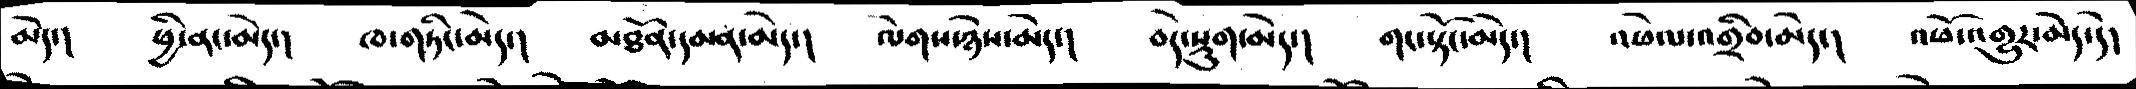མེད་།   ཕྱི་ནང་མེད་།   ཁ་གཏིང་མེད་།  མཐོན་དམན་མེད་།   ལེགས་ཉེས་མེད་།   བདེ་སྡུག་མེད་།   གང་སྟོང་མེད་།  འཕེལ་འགྲིབ་མེད་།  འཕོ་འགྱུར་མེད་དེ།
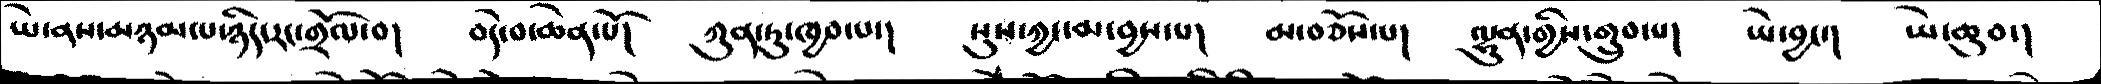ཡེ་ནས་མཉམ་པ་ཉིད་རང་གྲོལ་བ།   བདེ་བ་ཆེན་པོ།  ཀུན་ཏུ་ཁྱབ་པ་།   སུས་ཀྱང་མ་བྱས་པ།  མ་བཅོས་པ།  ལྷུན་གྱིས་གྲུབ་པ།  ཡེ་བྱང་།  ཡེ་ཆུབ་།
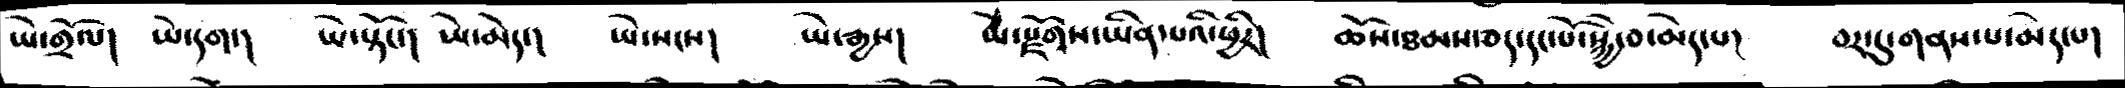ཡེ་གྲོལ།  ཡེ་དག་།   ཡེ་སྟོང་།  ཡེ་མེད་།  ཡེ་སངས།   ཡེ་རྒྱས།  ཡེ་རྫོགས་ཡིན་པའི་ཕྱིར།   ཆོས་ཐམས་ཅད་དང་པོ་སྐྱེ་བ་མེད་པ།  བར་དུ་གནས་པ་མེད་པ།
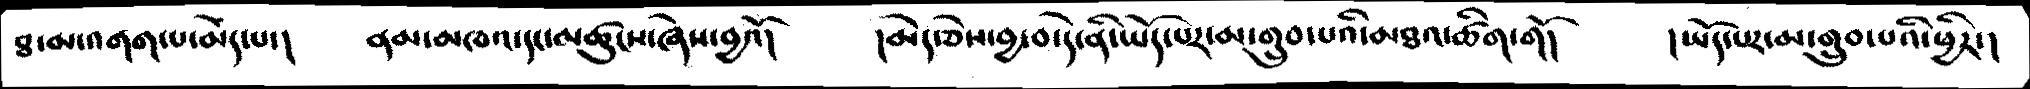ཐ་མ་འགག་པ་མེད་པ་།   ནམ་མཁའ་དང་མཚུངས་ཞེས་བྱའོ།   །མེད་ཅེས་བྱ་བ་དེ་ནི་ཡོད་པར་མ་གྲུབ་པའི་མཐའ་ཚིག་གོ།   །ཡོད་པར་མ་གྲུབ་པའི་ཕྱིར་།
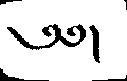༄༅།
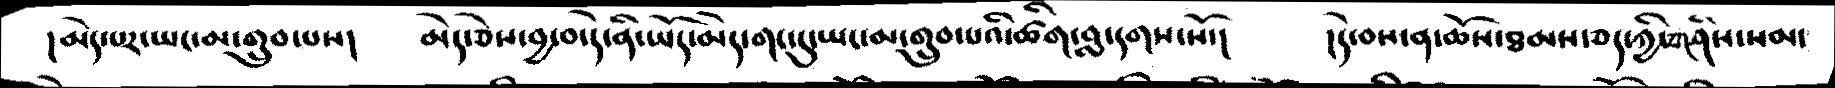།མེད་པར་ཡང་མ་གྲུབ་པས།  མེད་ཅེས་བྱ་བ་དེ་ནི་ཡོད་མེད་གང་དུ་ཡང་མ་གྲུབ་པའི་ཚིག་བླ་དགས་སོ་།   །དེ་བས་ན་ཆོས་ཐམས་ཅད་ཀྱི་གཤིས་སམ་
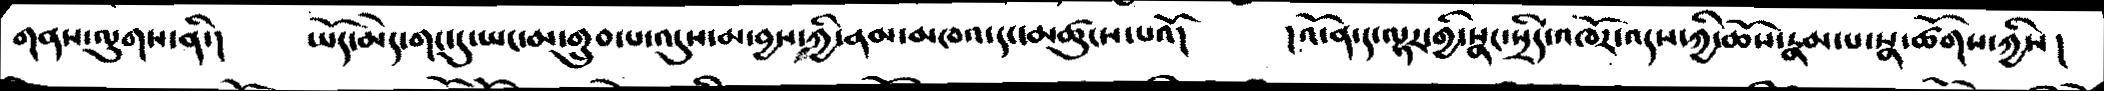གནས་ལུགས་ནི་།   ཡོད་མེད་གང་དུ་ཡང་མ་གྲུབ་པ་འདུས་མ་བྱས་ཀྱི་ནམ་མཁའ་དང་མཚུངས་པའོ།   །འོ་ན་ད་ལྟར་གྱི་སྣང་སྲིད་འཁོར་འདས་ཀྱི་ཆོས་རྣམ་པ་སྣ་ཚོགས་ཀྱིས།
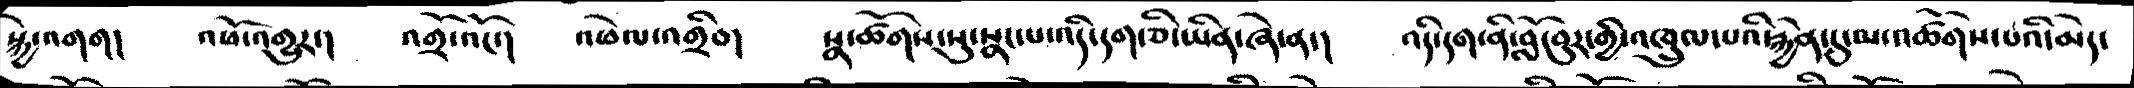སྐྱེ་འགག།   འཕོ་འགྱུར་།   འགྲོ་འོང་།   འཕེལ་འགྲིབ།   སྣ་ཚོགས་སུ་སྣང་པ་འདི་དག་ཅི་ཡིན་ཞེ་ན་།  འདི་དག་ནི་བློ་བུར་གྱི་འཁྲུལ་པའི་རྐྱེན་དུ་མ་འཚོགས་པའི་མེད་
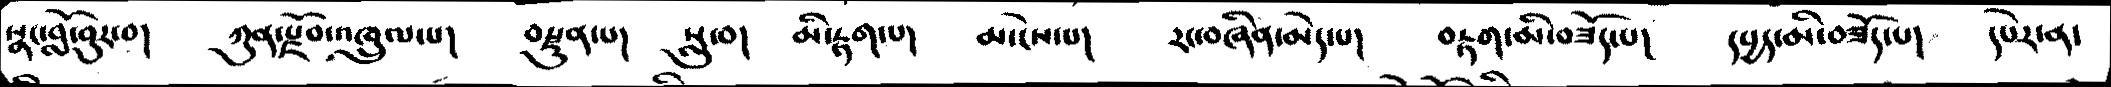སྣང་བློ་བུར་བ།   ཀུན་རྫོབ་འཁྲུལ་པ།   བརྫུན་པ།   སླུ་བ།   མི་རྟག་པ།   མ་ངེས་པ།   རང་བཞིན་མེད་པ།   བརྟག་མི་བཟོད་པ།    དཔྱད་མི་བཟོད་པ།   དཔེར་ན་
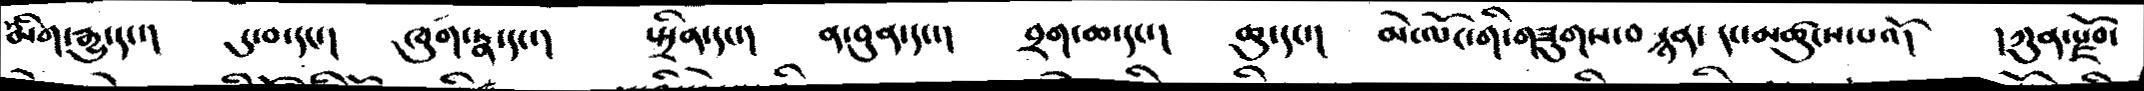སྨིག་རྒྱུ་དང་།   དུ་བ་དང་།   ཁུག་རྣ་དང་།   སྤྲིན་དང་།   ན་བུན་དང་།    བྲག་ཆ་དང་།   ཆུ་དང་།   མེ་ལོང་གི་གཟུགས་བརྙན་དང་མཚུངས་པའོ།   །ཀུན་རྫོབ་
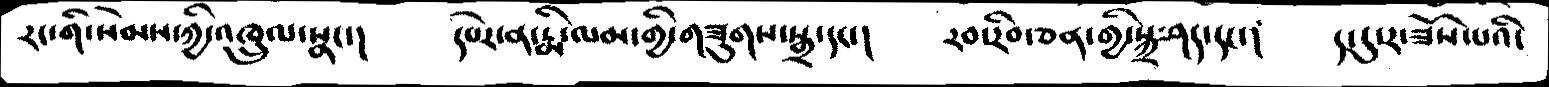རང་གི་སེམས་ཀྱི་འཁྲུལ་སྣང་།   དཔེར་ན་རྨི་ལམ་གྱི་གཟུགས་སྒྲ་དང་།   རབ་རིབ་ཅན་གྱི་སྐྲ་ཤད་དང་།   ད་དུ་ར་ཟོས་པའི་
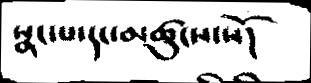སྣང་པ་དང་མཚུངས་སོ།
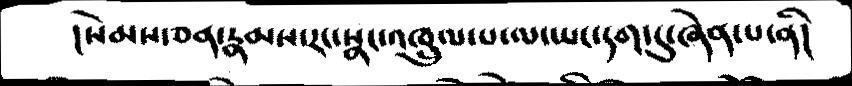།སེམས་ཅན་རྣམས་རང་སྣང་འཁྲུལ་པ་ལ་ཡང་དག་དུ་ཞེས་པ་ནི།
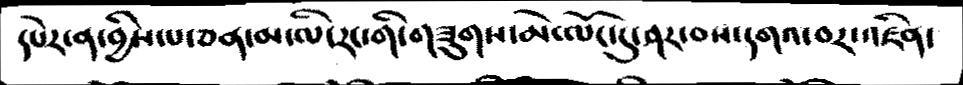དཔེར་ན་བྱིས་པ་ཅན་མ་ལི་རང་གི་གཟུགས་མེ་ལོང་དུ་ཤར་བས་དགའ་བར་འཛིན་
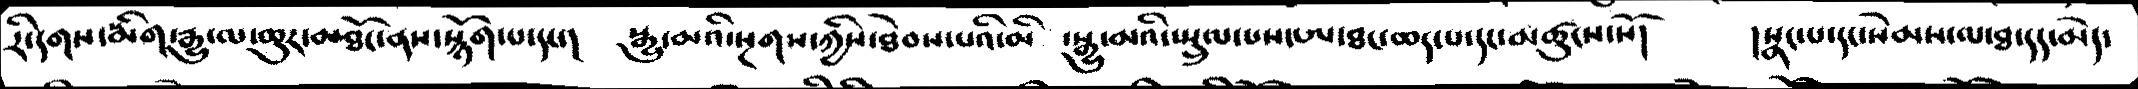རི་དགས་སྨིག་རྒྱུ་ལ་ཆུར་མཐོང་ནས་སྙོག་པ་དང།   སྒྱུ་མའི་སྔགས་ཀྱིས་ཐེབས་པའི་མི་ སྒྱུ་མའི་སྤྲུལ་པས་ཨ་ཐང་ཆད་པ་དང་མཚུངས་སོ།   །སྣང་པ་དང་སེམས་ལ་ཐ་དད་མེད་
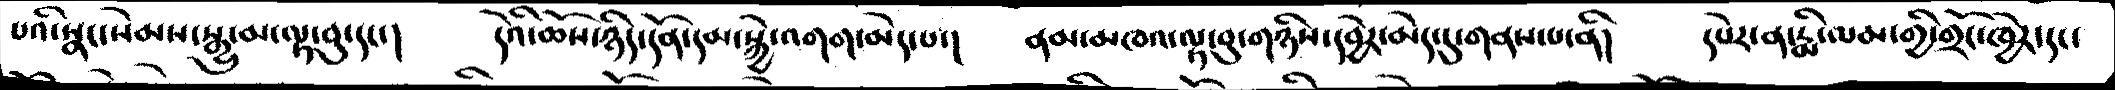པའི་སྣང་སེམས་སྒྱུ་མ་ལྟ་བུ་དང་།   དེའི་ཆོས་ཉིད་དོན་དམ་སྐྱེ་འགག་མེད་པ་།  ནམ་མཁའ་ལྟ་བུ་གཉིས་དབྱེར་མེད་དུ་གནས་པ་ནི།  དཔེར་ན་རྨི་ལམ་གྱི་གྲོང་ཁྱེར་དང་
